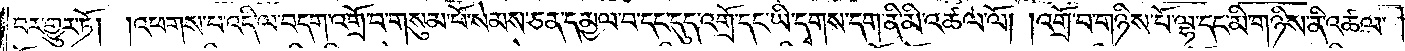བར་གྱུར་ཏོ། །འཕགས་པ་འདི་ལ་བདག་འགྲོ་བ་གསུམ་པོ་སེམས་ཅན་དམྱལ་བ་དང་དུད་འགྲོ་དང་ཡི་དྭགས་དག་ནི་མི་འཚལ་ལོ། །འགྲོ་བ་གཉིས་པོ་ལྷ་དང་མི་གཉིས་ནི་འཚལ་
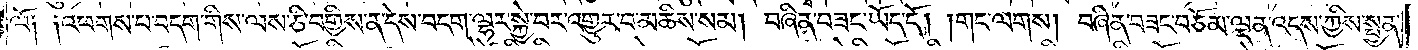ལོ༑ ༑འཕགས་པ་བདག་གིས་ལས་ཅི་བགྱིས་ན་དེས་བདག་ལྷར་སྐྱེ་བར་འགྱུར་བ་མཆིས་སམ། བཞིན་བཟང་ཡོད་དོ། །གང་ལགས། བཞིན་བཟང་བཅོམ་ལྡན་འདས་ཀྱིས་སྤྱན་
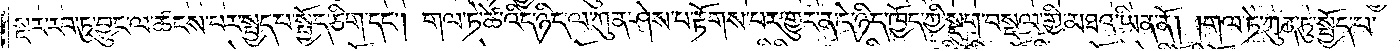སྔར་རབ་ཏུ་བྱུང་ལ་ཚངས་པར་སྤྱད་པ་སྤྱོད་ཅིག་དང༌། གལ་ཏེ་ཚེ་འདི་ཉིད་ལ་ཀུན་ཤེས་པ་རྟོགས་པར་གྱུར་ན་དེ་ཉིད་ཁྱོད་ཀྱི་སྡུག་བསྔལ་གྱི་མཐའ་ཡིན་ནོ། །གལ་ཏེ་ཀུན་ཏུ་སྤྱོད་པ་
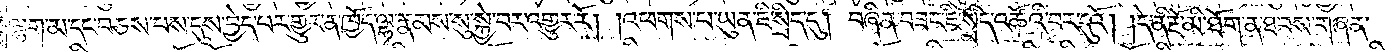ལྷག་མ་དང་བཅས་པས་དུས་བྱེད་པར་གྱུར་ན་ཁྱོད་ལྷ་རྣམས་སུ་སྐྱེ་བར་འགྱུར་རོ། །འཕགས་པ་ཡུན་ཇི་སྲིད་དུ། བཞིན་བཟང་ཇི་སྲིད་འཚོའི་བར་དུའོ། །དེ་ནི་རྔོ་མི་ཐོག་ན་ཐབས་གཞན་
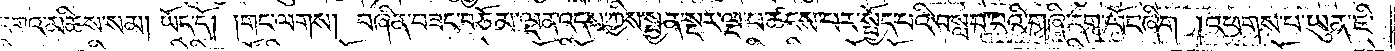འགའ་མཆིས་སམ། ཡོད་དོ། །གང་ལགས། བཞིན་བཟང་བཅོམ་ལྡན་འདས་ཀྱིས་སྤྱན་སྔར་ལྔ་པ་ཚངས་པར་སྤྱོད་པའི་བསླབ་པའི་གཞི་དག་ལོང་ཞིག །འཕགས་པ་ཡུན་ཇི་
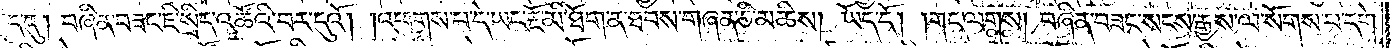སྲིད་དུ། བཞིན་བཟང་ཇི་སྲིད་འཚོའི་བར་དུའོ། །འཕགས་པ་དེ་ཡང་རྔོ་མི་ཐོག་ན་ཐབས་གཞན་ཅི་མཆིས། ཡོད་དོ། །གང་ལགས། བཞིན་བཟང་སངས་རྒྱས་ལ་སོགས་པ་དགེ་
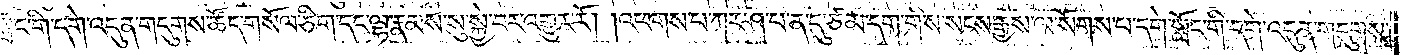སློང་གི་དགེ་འདུན་གདུགས་ཚོད་གསོལ་ཅིག་དང་ལྷ་རྣམས་སུ་སྐྱེ་བར་འགྱུར་རོ། །འཕགས་པ་ཀར་ཤ་པ་ན་དུ་ཙམ་དག་གིས་སངས་རྒྱས་ལ་སོགས་པ་དགེ་སློང་གི་དགེ་འདུན་གདུགས་
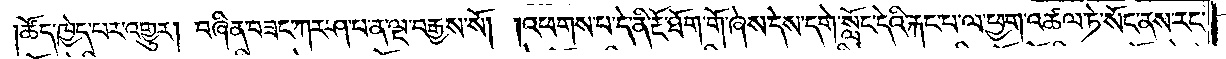ཚོད་ཁྱེད་པར་འགྱུར། བཞིན་བཟང་ཀར་ཤ་པ་ན་ལྔ་བརྒྱས་སོ། །འཕགས་པ་དེ་ནི་རྔོ་ཐོག་གོ་ཞེས་དེས་དགེ་སློང་དེའི་རྐང་པ་ལ་ཕྱག་འཚལ་ཏེ་སོང་ནས་རང་
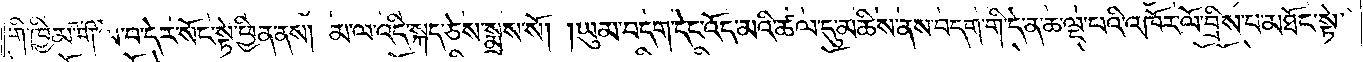གི་ཁྱིམ་ག་ལ་བ་དེར་སོང་སྟེ་ཕྱིན་ནས། མ་ལ་འདི་སྐད་ཅེས་སྨྲས་སོ། །ཡུམ་བདག་དེང་འོད་མའི་ཚལ་དུ་མཆིས་ནས་བདག་གི་དེ་ན་ཆ་ལྔ་པའི་འཁོར་ལོ་བྲིས་པ་མཐོང་སྟེ་
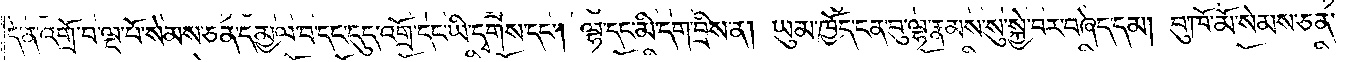དེ་ན་འགྲོ་བ་ལྔ་པོ་སེམས་ཅན་དམྱལ་བ་དང་དུད་འགྲོ་དང་ཡི་དྭགས་དང༌། ལྷ་དང་མི་དག་བྲིས་ན། ཡུམ་ཁྱོད་ངན་བུ་ལྷ་རྣམས་སུ་སྐྱེ་བར་བཞེད་དམ། བུ་ཁོ་མོ་སེམས་ཅན་
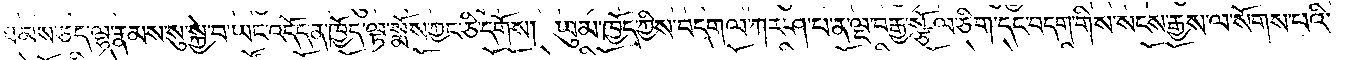ཐམས་ཅད་ལྷ་རྣམས་སུ་སྐྱེ་བ་ཡང་འདོད་ན་ཁྱོད་ལྟ་སྨོས་ཀྱང་ཅི་དགོས། ཡུམ་ཁྱོད་ཀྱིས་བདག་ལ་ཀར་ཤ་པ་ན་ལྔ་བརྒྱ་སྩོལ་ཅིག་དང་བདག་གིས་སངས་རྒྱས་ལ་སོགས་པའི་
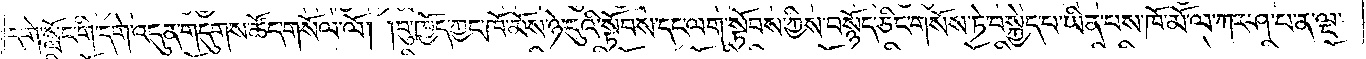དགེ་སློང་གི་དགེ་འདུན་གདུགས་ཚོད་གསོལ་ལོ། །བུ་ཁྱོད་ཀྱང་ཁོ་མོས་ཉེ་དུའི་སྟོབས་དང་ལག་སྟོབས་ཀྱིས་བསྙོད་ཅིང་གསོས་ཏེ་བསྐྱེད་པ་ཡིན་པས་ཁོ་མོ་ལ་ཀར་ཤ་པ་ན་ལྔ་
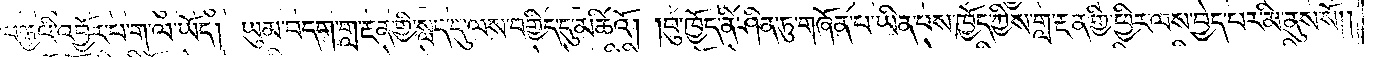བརྒྱའི་འབྱོར་པ་ག་ལ་ཡོད། ཡུམ་བདག་གླ་རྔན་གྱི་སླད་དུ་ལས་བགྱིད་དུ་མཆིའོ། །བུ་ཁྱོད་ནི་ཤིན་ཏུ་གཞོན་པ་ཡིན་པས་ཁྱོད་ཀྱིས་གླ་རྔན་གྱི་ཕྱིར་ལས་བྱེད་པར་མི་ནུས་སོ། །
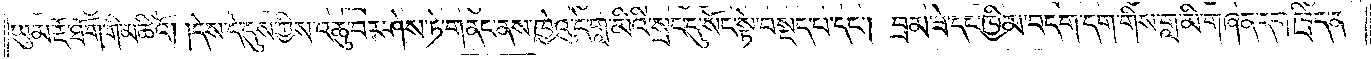ཡུམ་རྔོ་ཐོག་གི་མཆིའོ། །དེས་དེ་དུས་ཀྱིས་འཆུ་བར་ཤེས་ཏེ་གནང་ནས་ཁྱེའུ་དེ་གླ་མིའི་སྲང་དུ་སོང་སྟེ་བསྡད་པ་དང༌། བྲམ་ཟེ་དང་ཁྱིམ་བདག་དག་གིས་གླ་མི་གཞན་དག་ཁྲིད་ན་
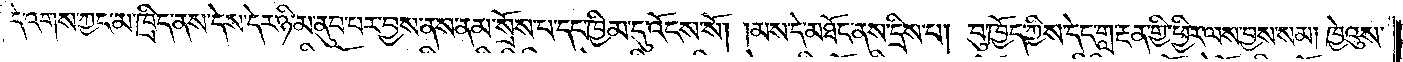དེ་འགས་ཀྱང་མ་ཁྲིད་ནས་དེས་དེར་ཉི་མ་ནུབ་པར་བྱས་ནས་ནམ་སྲོས་པ་དང་ཁྱིམ་དུ་འོངས་སོ། །མས་དེ་མཐོང་ནས་དྲིས་པ། བུ་ཁྱོད་ཀྱིས་དེད་གླ་རྔན་གྱི་ཕྱིར་ལས་བྱས་སམ། ཁྱེའུས་
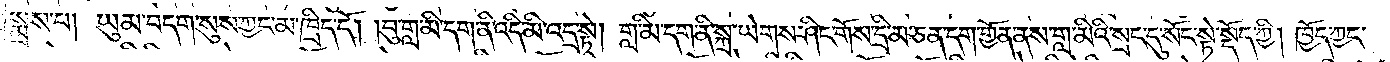སྨྲས་པ། ཡུམ་བདག་སུས་ཀྱང་མ་ཁྲིད་དོ། །བུ་གླ་མི་དག་ནི་འདི་མི་འདྲ་སྟེ། གླ་མི་དག་ནི་སྐྲ་ཡེགས་ཤིང་གོས་དྲི་མ་ཅན་དག་གྱོན་ནས་གླ་མིའི་སྲང་དུ་སོང་སྟེ་སྡོད་ཀྱི། ཁྱོད་ཀྱང་
